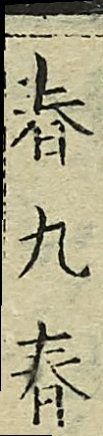春九春
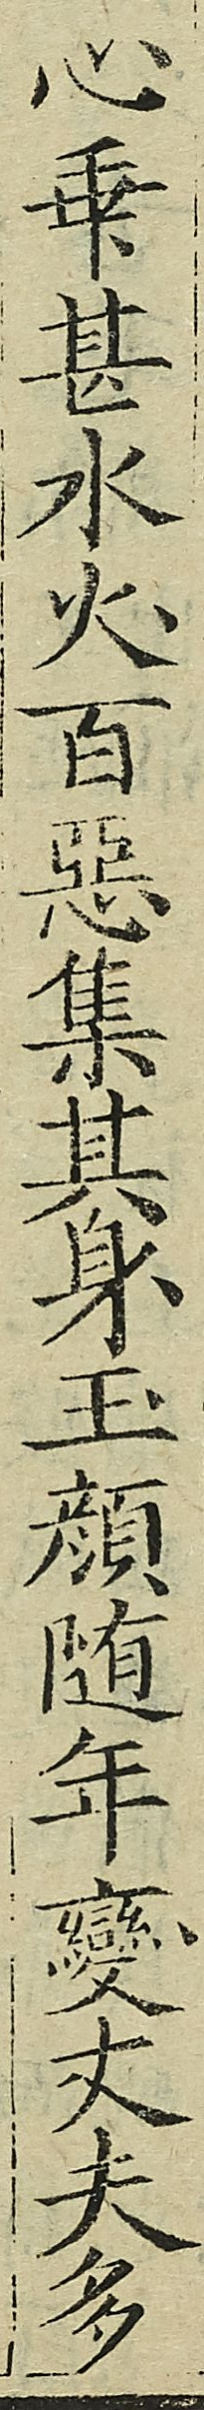心乖甚水火百惡集其身玉顏隨年變丈夫多
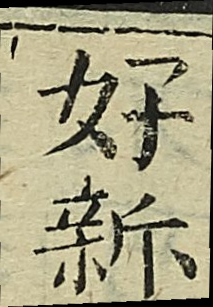好新
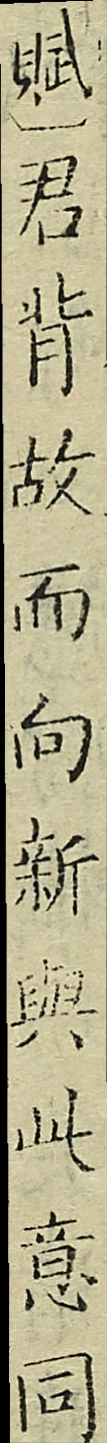賦）君背故而向新與此意同
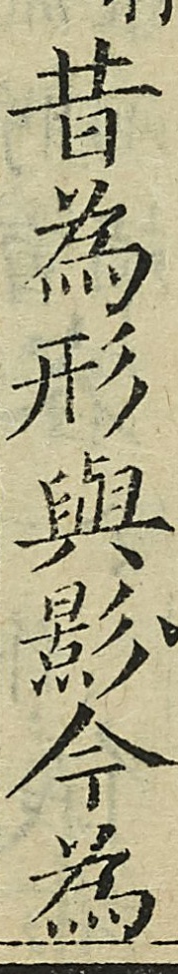昔為形與影今為
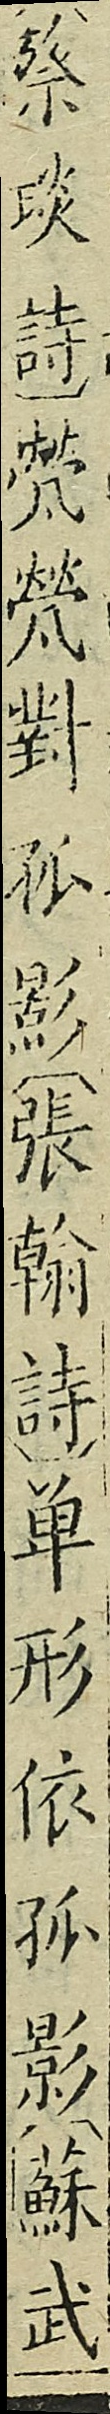祭琰詩𠙦𠙦對孤影（張翰詩）單形依孤影(蘇武
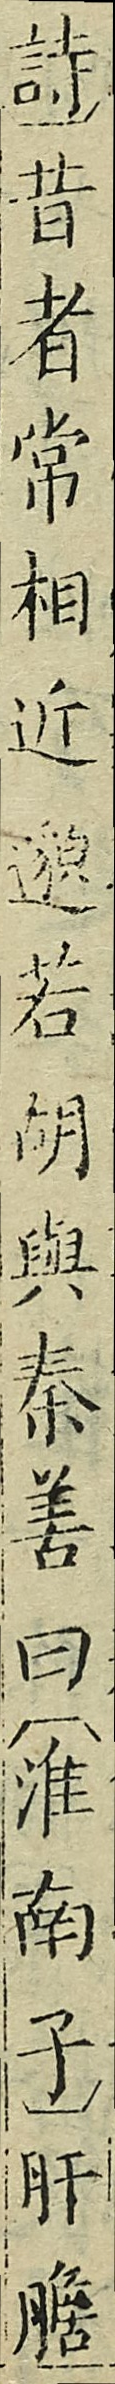詩）昔者常相近邈若胡與秦𠵊曰（淮南子）肝膽
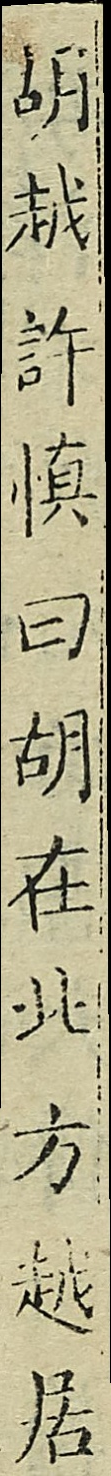胡越許慎曰胡在北方越居
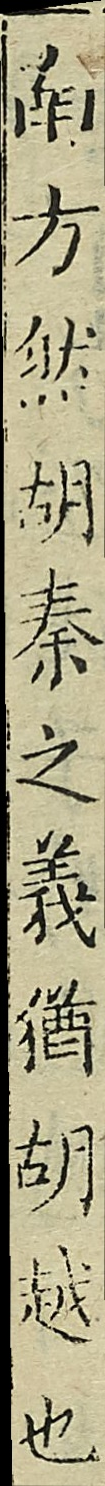南方然胡秦之義猶胡越也
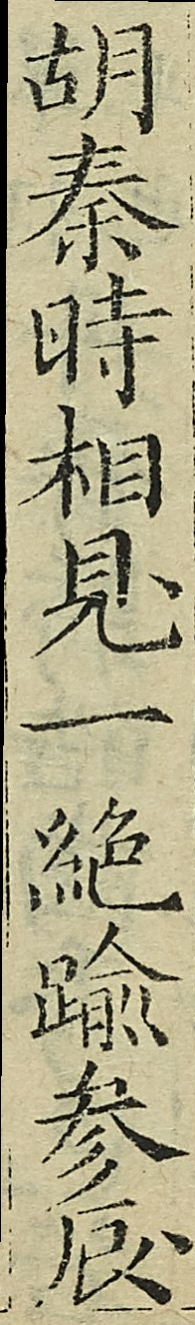胡秦時相見一絕踰參辰
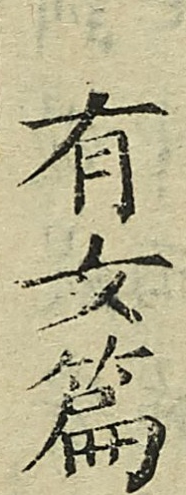有女篇
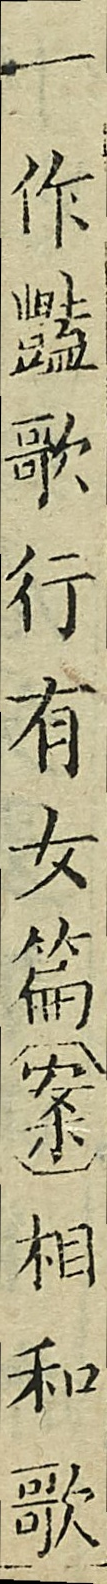一作豔歌行有女篇（案）相和歌
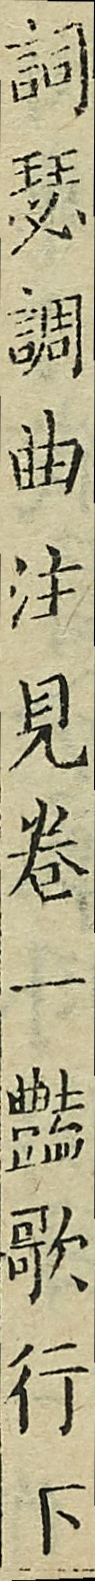詞瑟調曲注見卷一豔歌行下
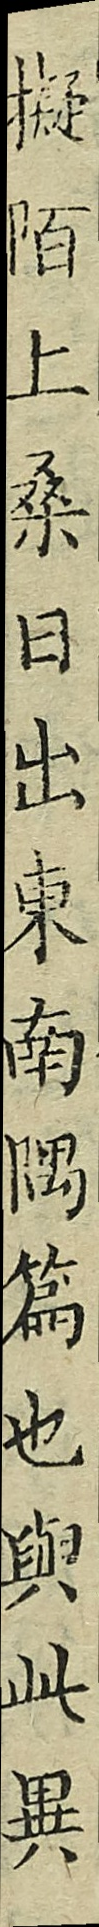擬陌上桑日出東南隅篇也與此異
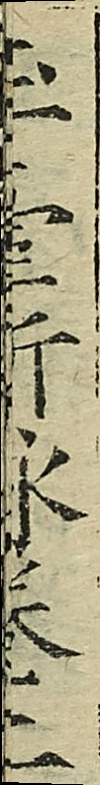玉臺新詠卷二
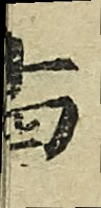十四
